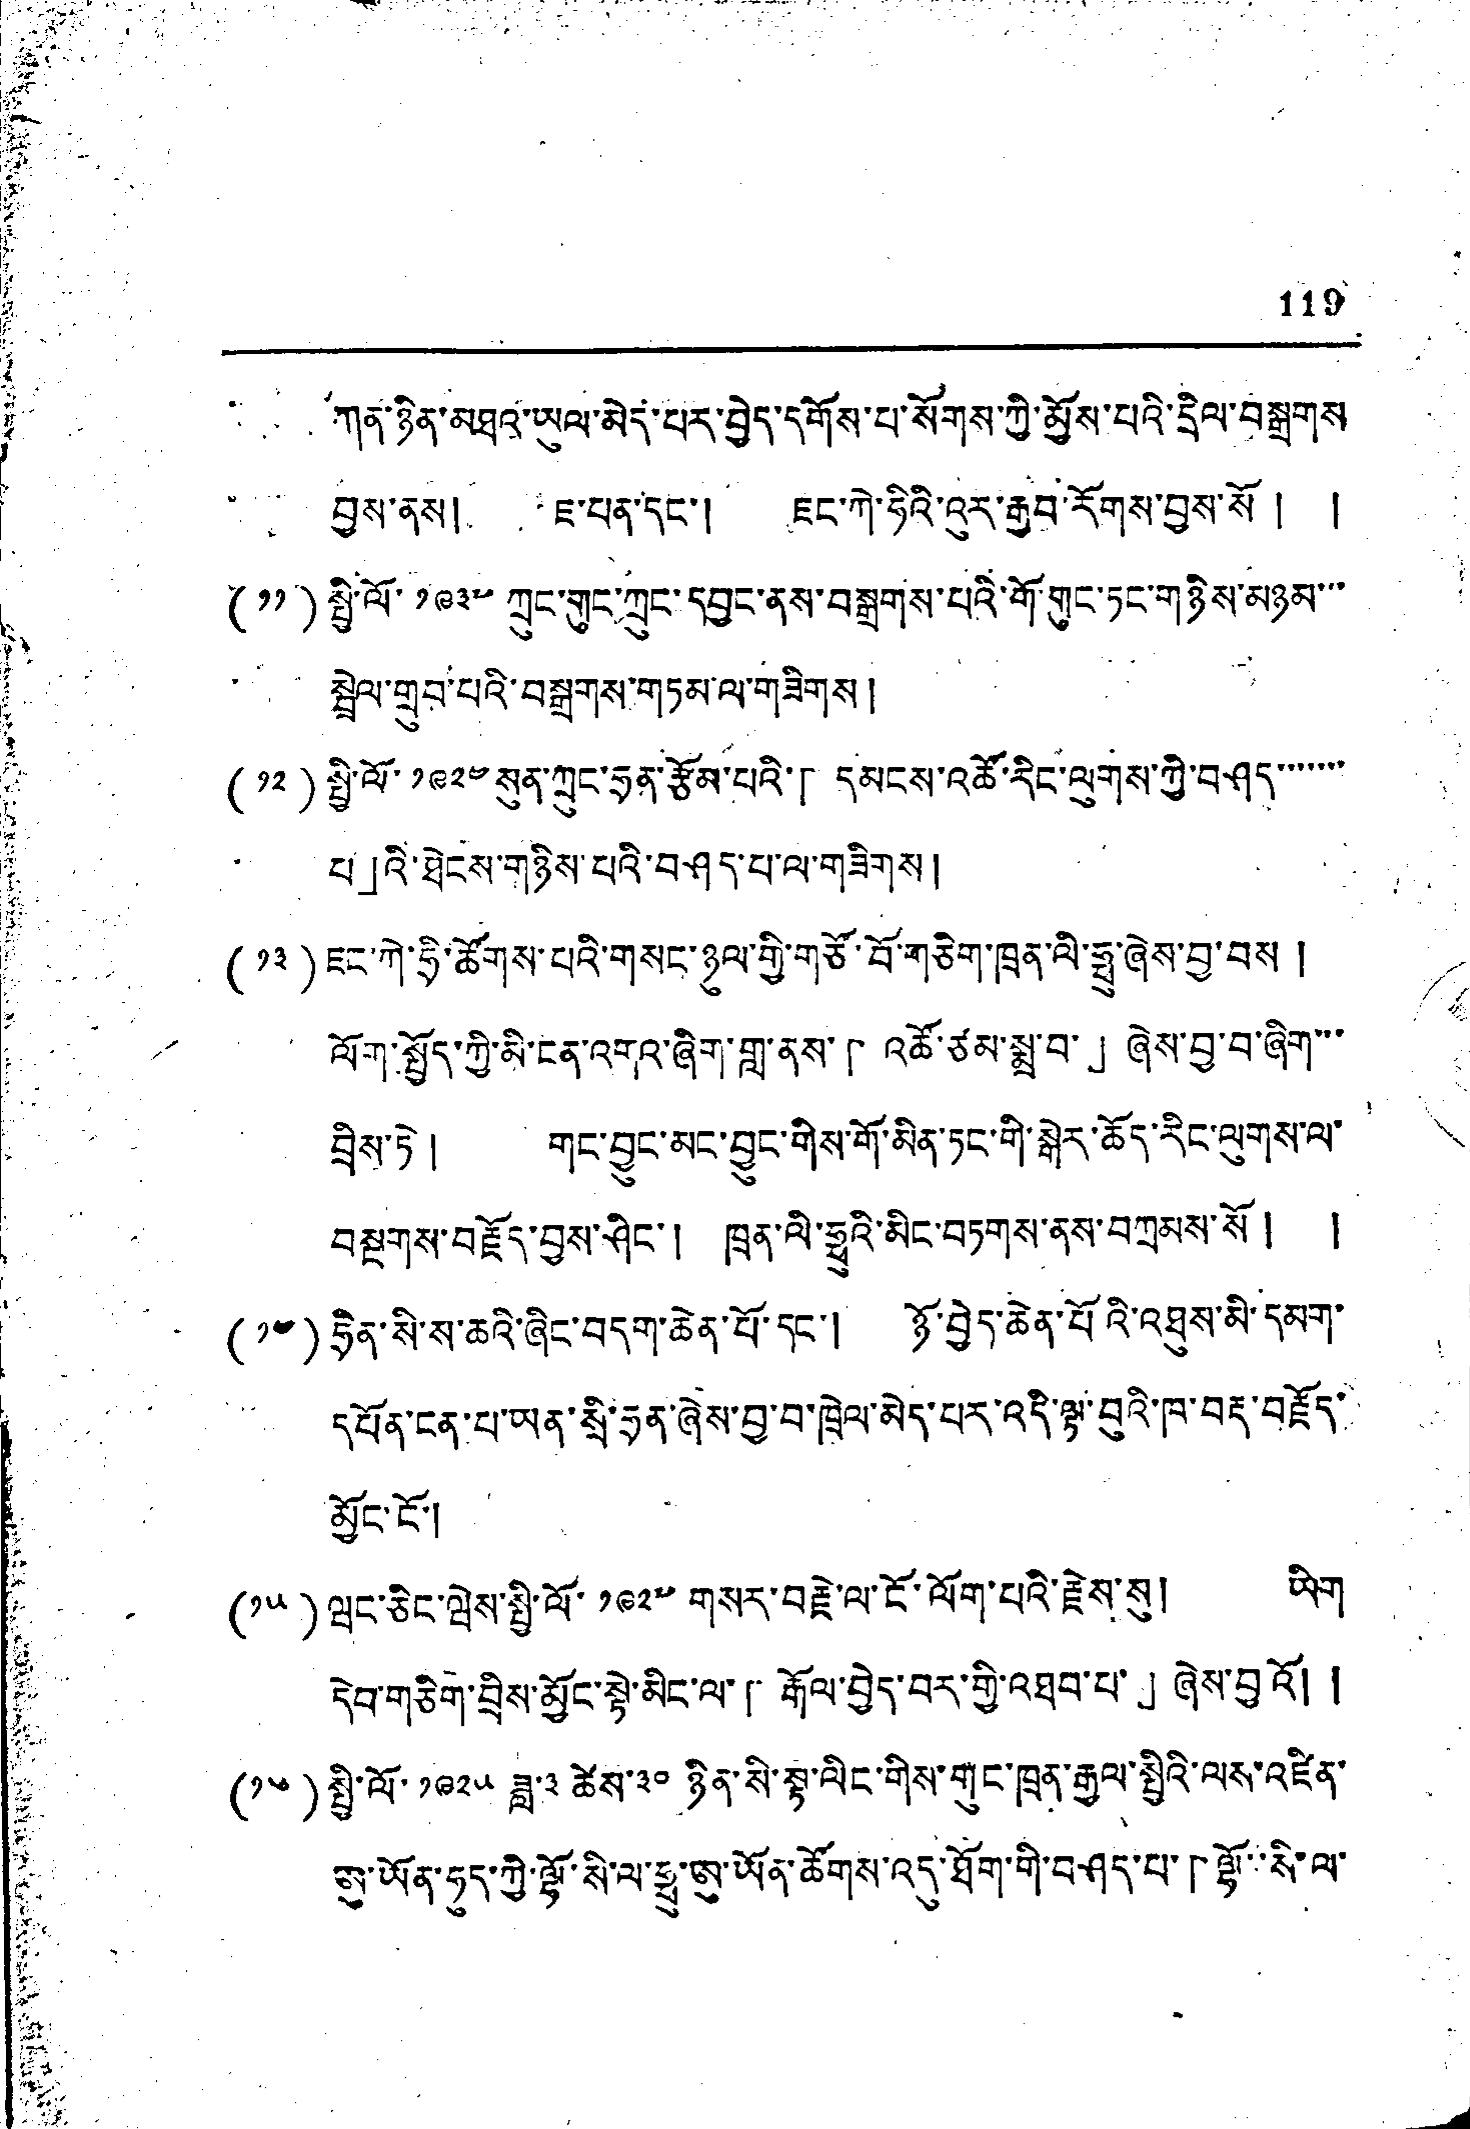119
ཀན་ཉིན་མཐའ་ཡུལ་མེད་པར་བྱེད་དགོས་པ་སོགས་ཀྱི་མྱོས་པའི་དྲིལ་བསྒྲགས་
བྱས་ན། ཇ་པན་དང་། ཇང་ཀེ་ཧིའི་འུར་རྒྱབ་རོགས་བྱས་སོ། །
(༡༡)སྤྱི་ལོ་༡༩༣༧ ཀྲུང་གུང་ཀྲུང་དབྱང་ནས་བསྒྲགས་པའི་གོ་གུང་ཏང་གཉིས་མཉམ་་་
སྦྲེལ་གྲུབ་པའི་བསྒྲགས་གཏམ་ལ་གཟིགས།
(༡༢)སྤྱི་ལོ་༡༩༢༤ སུན་ཀྲུང་ཧྲན་རྩོམ་པའི་「དམངས་འཚོ་རིང་རིང་ལུགས་ཀྱི་བཤད་་་་་་་
པ」འི་ཐེངས་གཉིས་པའི་བཤད་པ་ལ་གཟིགས།
(༡༣)ཇང་ཀེ་ཧྲི་ཚོགས་པའི་གསང་ཉུལ་གྱི་གཙོ་བོ་གཅིག་ཁྲན་ལི་ཧྥུ་ཞེས་བྱས་བས།
ལོག་སྤྱོད་ཀྱི་མི་ངན་འགའ་ཞིག་གླ་ནས་「འཚོ་ཙམ་སྨྲ་བ་」ཞེས་བྱས་བ་ཞིག་་་
བྲིས་ཏེ། གང་བྱུང་མང་བྱུང་གིས་གོ་མིན་ཏང་གི་སྒེར་ཆོད་རིང་ལུགས་ལ་
བསྔགས་བརྗོད་བྱས་ཤིང་། ཁྲན་ལི་ཧྥུའི་མིང་བཏགས་ནས་བཀྲམས་སོ། །
(༡༤)ཧྲིན་སི་ས་ཆའི་ཞིང་བདག་ཆེན་པོ་དང་། ཉོ་བྱེད་ཆེན་པོ་འཐུས་མི་དམག་
དཔོན་ངན་པ་ཡན་སྲི་ཧྲན་ཞེས་བྱ་བ་ཁྲེལ་མེད་པར་འདི་ལྟ་བུའི་ཁ་བརྡ་བརྗོད་
མྱོང་ངོ་།
(༡༥)ཝང་ཇིང་ཝེས་སྤྱི་ལོ་༡༩༢༧ གསར་བརྗེ་ལ་ངོ་ལོག་པའི་རྗེས་སུ། ཡིག་
དེབ་གཅིག་བྲིས་མྱོང་སྟེ་མིང་ལ་「རྒོལ་བྱེད་བར་གྱི་འཐབ་པ་」ཞེས་བྱའོ། །
(༡༦)སྤྱི་ལོ་༡༩༢༥ ཟླ་༣ ཚེས་༣༠ ཉིན་སི་སྟ་ལིང་གིས་གུང་ཁྲན་རྒྱལ་སྤྱིའི་ལས་འཛིན་
ཨུ་ཡོན་ཧུད་ཀྱི་ལྷོ་སི་ལ་ཧྥུ་ཨུ་ཡོན་ཚོགས་འདུ་ཐོག་གི་བཤད་པ་「ལྷོ་སི་ལ་
